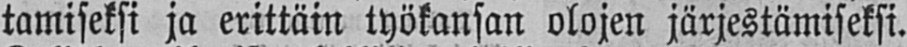tamiseksi ja erittäin työkansan olojen järjestämiseksi.
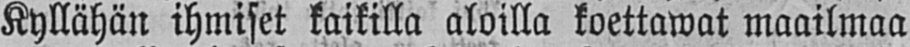Kyllähän ihmiset kaikilla aloilla koettawat maailmaa
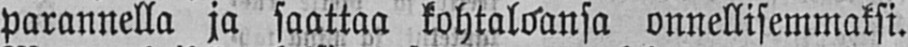parannella ja saattaa kohtaloansa onnellisemmaksi.
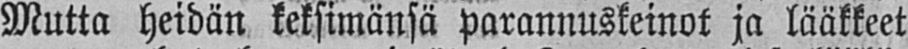Mutta heidän keksimänsä parannuskeinot ja lääkkeet
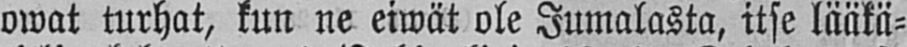owat turhat, kun ne eiwät ole Jumalasta, itse lääkä-
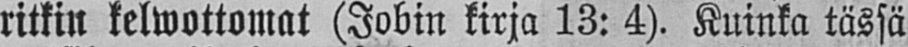ritkin kelwottomat (Jobin kirja 13: 4). Kuinka tässä
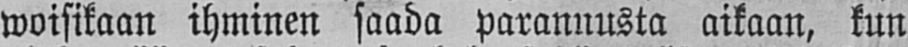woisikaan ihminen saada parannusta aikaan, kun
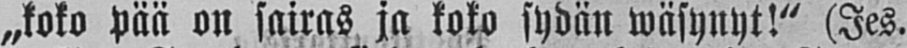„koko pää on sairas ja koko sydän wäsynyt!" (Jes.
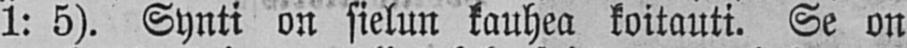1: 5). Synti on sielun kauhea koitauti. Se on
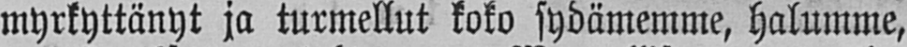myrkyttänyt ja turmellut koko sydämemme, halumme,
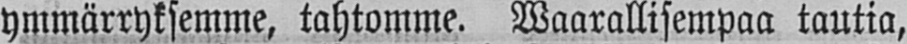ymmärryksemme, tahtomme. Waarallisempaa tautia,
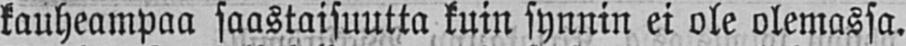kauheampaa saastaisuutta kuin synnin ei ole olemassa.
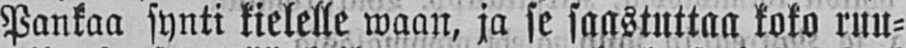Pankaa synti kielelle waan, ja se saastuttaa koko ruu-
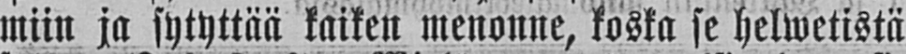miin ja sytyttää kaiken menonne, koska se helwetistä
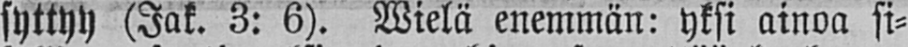syttyy (Jak. 3: 6). Wielä enemmän: yksi ainoa si-
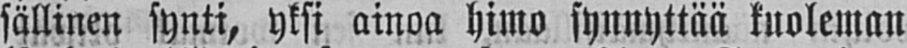sällinen synti, yksi ainoa himo synnyttää kuoleman
